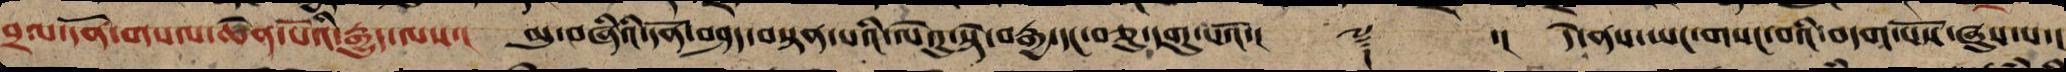བྲལ་དོན་གསལ་ཆེན་པོའི་རྒྱུད་ལས་། མུ་བཞིའི་དོན་བསྟན་པའི་ལེའུ་སྟེ་བརྒྱ་དང་བཅུ་དགུ་པའོ་།། ༈ ་། དེ་ནས་ཡང་གསང་བའི་བདག་པོས་ཞུས་པ་།
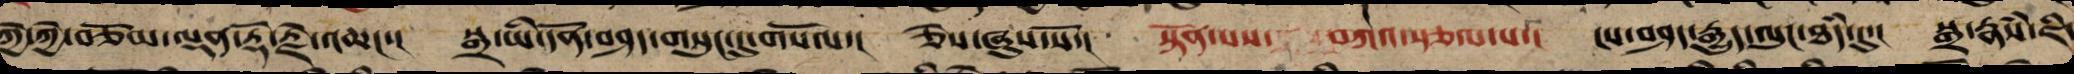ཀྱེ་ཀྱེ་བཅོམ་ལྡན་རྡོ་རྗེ་འཆང་། སྒྲ་ཡི་དོན་བཤད་གསུང་དུ་གསོལ་། ཅེས་ཞུས་སོ་། སྟོན་པས་ བཀའ་སྩལ་པ་། ངས་བཤད་རྒྱུད་ལུང་ཐཾད་དུ་། སྒྲ་རྣཾས་ཇི་
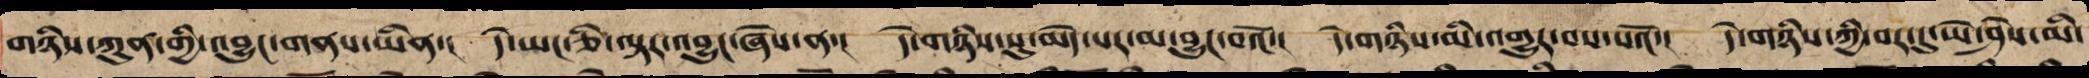གཉིས་ཀུན་གྱི་འབྱུང་གནས་ཡིན་། དེ་ཡང་ཅི་ལྟར་འབྱུང་ཞེ་ན་། དེ་གཉིས་སུ་མེད་པར་མ་བྱུང་བའོ་། དེ་གཉིས་མི་འགྱུར་བས་སའོ་། དེ་གཉིས་ཀྱི་བར་དུ་ཡེ་ཤེས་མི་
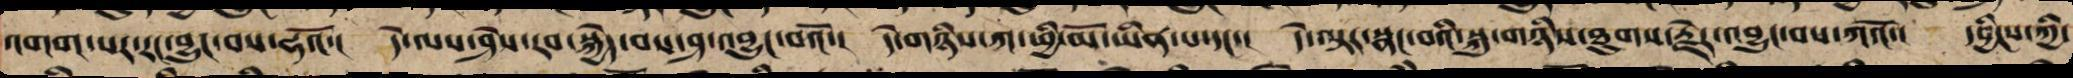འགག་པར་རང་བྱུང་བས་ཧའོ་། དེ་ལས་ཤེས་རབ་སྐྱེད་བས་ཤ་འབྱུང་བའོ་། དེ་གཉིས་ཀ་ཕྱི་མོ་ཡིན་པ་དང་། དེ་ལྟར་སྣང་བའི་སྐུ་གཉིས་ཐུགས་རྗེར་འབྱུང་བས་ཀའོ་། དབྱིངས་ཀྱི་
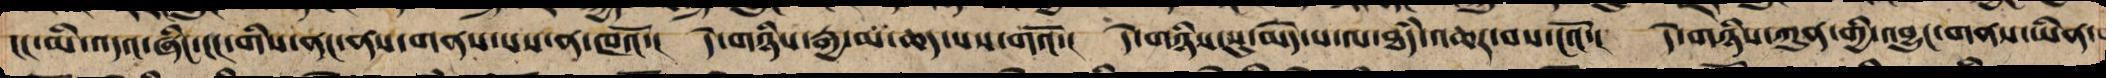ངང་མི་འདའ་ཞིང་ངང་གིས་ནང་ནས་གནས་པས་ན་ཁའོ་། དེ་གཉིས་རྒྱ་མ་ཆད་པས་གའོ་། དེ་གཉིས་སུ་མེད་པ་ལ་ཐཾད་འཆར་བས་ངའོ་། དེ་གཉིས་ཀུན་གྱི་འབྱུང་གནས་ཡིན་
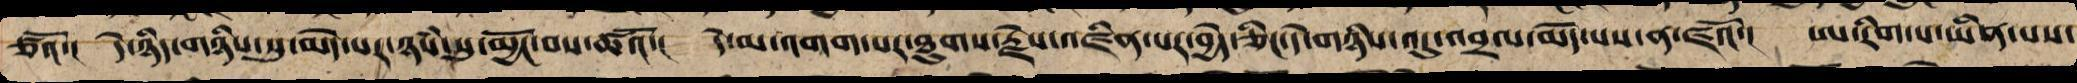ཙའོ་། དེ་ཉིད་གཉིས་སུ་མེད་པར་ཉཾས་སུ་མྱོང་བས་ཚའོ་། དེ་མ་འགགས་པར་ཐུགས་རྗེས་འཛིན་པར་བྱེད་ཅིང་དེ་གཉིས་འདུ་འབྲལ་མེད་པས་ན་ཛའོ་། ཨ་རིག་པ་ཡིན་པས་
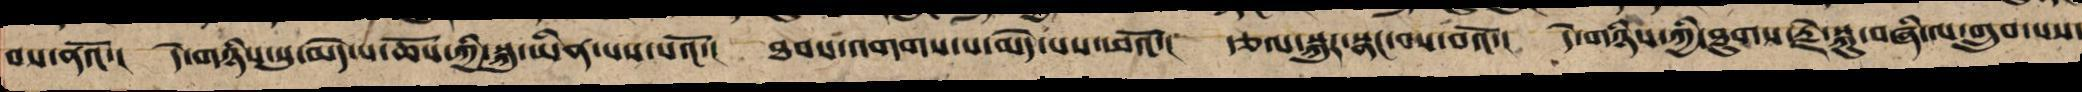བས་ནའོ་། དེ་གཉིས་སུ་མེད་པ་ཆོས་ཀྱི་སྐུ་ཡིན་པས་པའོ་། ཐབས་འགགས་པ་མེད་པས་ཕའོ་། རྩལ་སྐུར་སྣང་བས་བའོ་། དེ་གཉིས་ཀྱི་ཐུགས་རྗེ་སྐུ་བཞི་ལ་གྲུབ་པས་
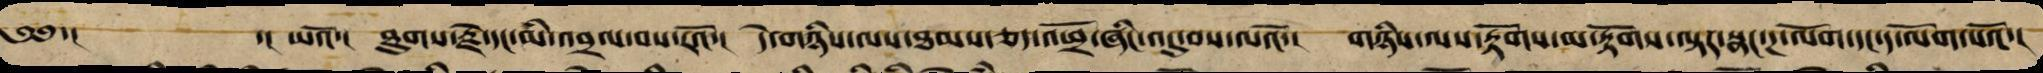༄༅་། ་། ཡའོ་། ཐུགས་རྗེ་དང་མི་འབྲལ་བས་རའོ་། དེ་གཉིས་ལས་ཐམས་ཅད་འཕྲོ་ཞིང་འདུ་བས་ལའོ་། གཉིས་ལས་རྟོགས་མ་རྟོགས་ལྟར་སྣང་ཌ་ལོག་དང་ད་ལོག་པའོ་།
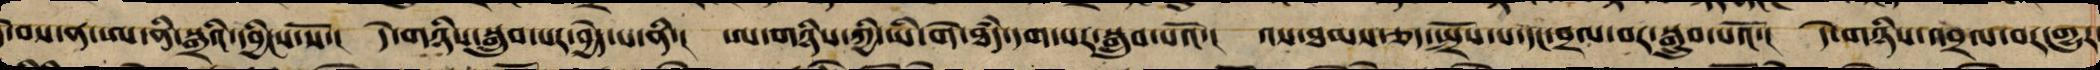་བས་ན་ཨ་ནི་སྒྲའི་དབྱིངས་སོ་། དེ་གཉིས་སྒྲུབ་པར་བྱེད་པ་ནི་། ཨ་གཉིས་ཀྱི་ཡི་གེ་ཐཾད་དག་པར་སྒྲུབ་པའོ་། འས་ཐམས་ཅད་སྤྲོས་པ་དང་བྲལ་བར་སྒྲུབ་པའོ་། དེ་གཉིས་འབྲེལ་བར་གྱུར་
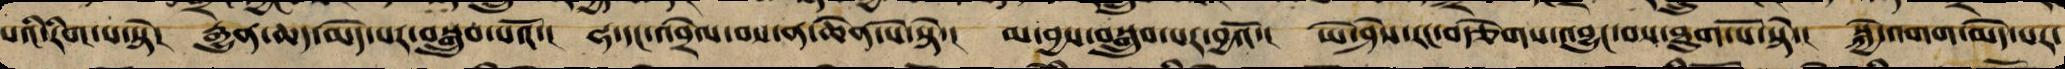པའི་རིག་པ་སྟེ། རྒྱུན་ཆད་མེད་པར་བསྒྲུབ་པའོ་། ཧ་དང་འབྲེལ་བས་ན་ཆེན་པོ་སྟེ་། མ་བྱས་པ་བསྒྲུབ་པར་བྱའོ་། ཡེ་ཤེས་རང་བརྩེགས་འབྱུང་བས་ཐུག་པོ་སྟེ་། སྐྱེ་འགག་མེད་པར་
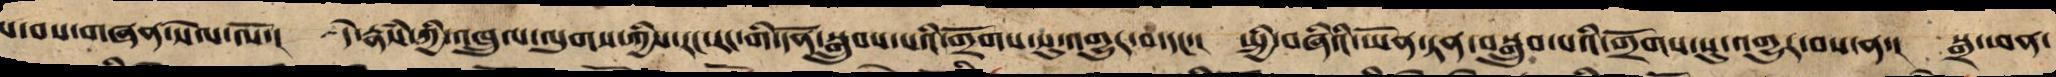པ་བས་གཞན་སེལ་ལོ་། དེ་རྣཾས་ཀྱི་འཁྲུལ་ལུགས་ཀྱིས་རང་རང་གི་དོན་སྒྲུབ་པའི་གྲོགས་སུ་འགྱུར་བ་དང་། སྤྱི་བཞིའི་ཡོན་ཏན་བསྒྲུབ་པའི་གྲོགས་སུ་འགྱུར་བས་ན་། སྒྲ་ཕན་
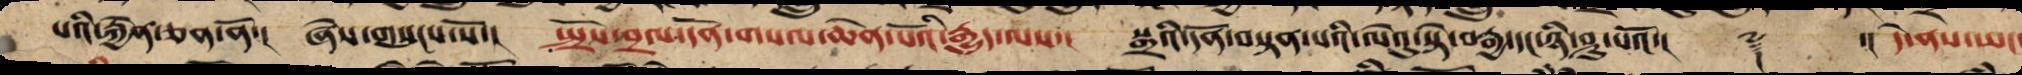པའི་རྐྱེན་ཅན་ནོ་། ཞེས་གསུངས་སོ་། སྤྲོས་བྲལ་དོན་གསལ་ཆེན་པོའི་རྒྱུད་ལས་། སྒྲའི་དོན་བསྟན་པའི་ལེའུ་སྟེ་བརྒྱ་དང་ཉི་ཤུ་པའོ་།། ༈ ་། དེ་ནས་ཡང་
